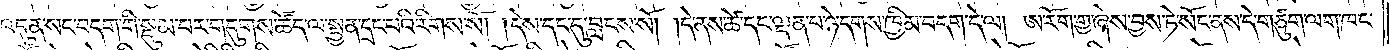འདུན་སང་བདག་གི་སྡུམ་པར་གདུགས་ཚོད་ལ་སྤྱན་དྲངས་པའི་རིགས་སོ། །དེས་དང་དུ་བླངས་སོ། །དེ་ནས་ཚེ་དང་ལྡན་པ་ཉེ་དགས་ཁྱིམ་བདག་དེ་ལ། ཨ་རོག་གྱ་ཞེས་བྱས་ཏེ་སོང་ནས་དེ་གཙུག་ལག་ཁང་
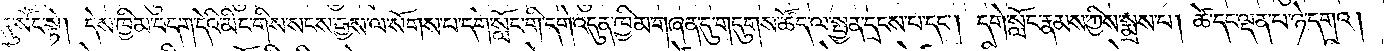དུ་སོང་སྟེ། དེས་ཁྱིམ་བདག་དེའི་མིང་གིས་སངས་རྒྱས་ལ་སོགས་པ་དགེ་སློང་གི་དགེ་འདུན་ཁྱིམ་གཞན་དུ་གདུགས་ཚོད་ལ་སྤྱན་དྲངས་པ་དང༌། དགེ་སློང་རྣམས་ཀྱིས་སྨྲས་པ། ཚེ་དང་ལྡན་པ་ཉེ་དགའ།
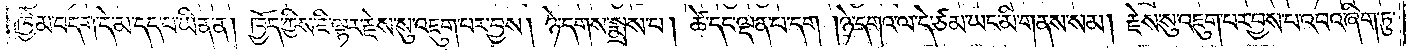ཁྱིམ་བདག་དེ་མ་དད་པ་ཡིན་ན། ཁྱོད་ཀྱིས་ཇི་ལྟར་རྗེས་སུ་འཇུག་པར་བྱས། ཉེ་དགས་སྨྲས་པ། ཚེ་དང་ལྡན་པ་དག །ཉེ་དགའ་ལ་དེ་ཙམ་ཡང་མི་གནས་སམ། རྗེས་སུ་འཇུག་པར་བྱས་པ་འབའ་ཞིག་ཏུ་
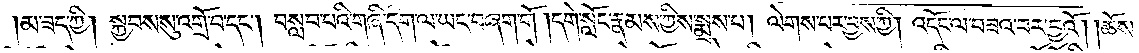།མ་ཟད་ཀྱི། སྐྱབས་སུ་འགྲོ་བ་དང༌། བསླབ་པའི་གཞི་དག་ལ་ཡང་བཞག་གོ །དགེ་སློང་རྣམས་ཀྱིས་སྨྲས་པ། ལེགས་པར་བྱས་ཀྱི། འདོང་ལ་བཟའ་བར་བྱའོ། །ཆོས་
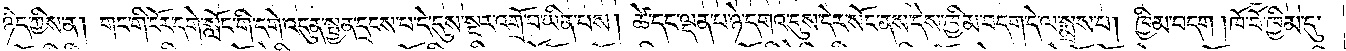ཉིད་ཀྱིས་ན། གང་གི་ངོར་དགེ་སློང་གི་དགེ་འདུན་སྤྱན་དྲངས་པ་དེ་དུས་སྔར་འགྲོ་བ་ཡིན་པས། ཚེ་དང་ལྡན་པ་ཉེ་དགའ་དུས་དེར་སོང་ནས་དེས་ཁྱིམ་བདག་དེ་ལ་སྨྲས་པ། ཁྱིམ་བདག །ཁོ་བོ་ཁྱིམ་དུ་
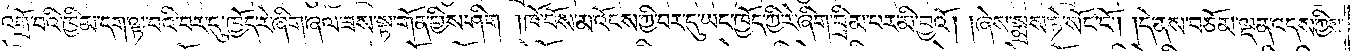འགྲོ་བའི་ཁྱིམ་དག་ལྟ་བའི་བར་དུ་ཁྱོད་རེ་ཞིག་ཞལ་ཟས་སྟ་གོན་གྱིས་ཤིག །ཁོ་བོས་མ་འོངས་ཀྱི་བར་དུ་ཡང་ཁྱོད་ཀྱི་རེ་ཞིག་བྲིམ་པར་མི་བྱའོ། །ཞེས་སྨྲས་ཏེ་སོང་ངོ༌། །དེ་ནས་བཅོམ་ལྡན་འདས་ཀྱིས་
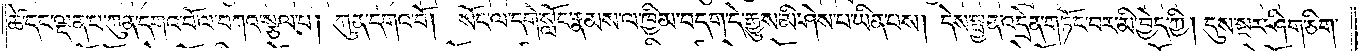ཚེ་དང་ལྡན་པ་ཀུན་དགའ་བོ་ལ་བཀའ་སྩལ་པ། ཀུན་དགའ་བོ། སོང་ལ་དགེ་སློང་རྣམས་ལ་ཁྱིམ་བདག་དེ་རྒྱུས་མི་ཤེས་པ་ཡིན་པས། དེས་སྤྱན་འདྲེན་གཏོང་བར་མི་བྱེད་ཀྱི། དུས་སྔར་ཤིག་ཅིག་
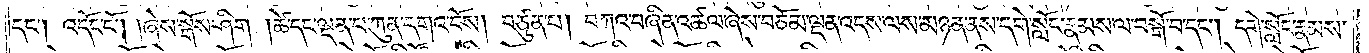དང༌། འདོང་ངོ༌། །ཞེས་སྒོས་ཤིག །ཚེ་དང་ལྡན་པ་ཀུན་དགའ་བོས། བཙུན་པ། བཀའ་བཞིན་འཚལ་ཞེས་བཅོམ་ལྡན་འདས་ལས་མཉན་ནས་དགེ་སློང་རྣམས་ལ་བསྒོ་བ་དང༌། དགེ་སློང་རྣམས་
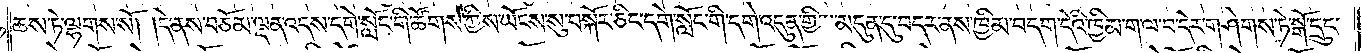ཆས་ཏེ་ལྷགས་སོ། །དེ་ནས་བཅོམ་ལྡན་འདས་དགེ་སློང་གི་ཚོགས་ཀྱིས་ཡོངས་སུ་བསྐོར་ཅིང་དགེ་སློང་གི་དགེ་འདུན་གྱི་མདུན་དུ་བདར་ནས་ཁྱིམ་བདག་དེའི་ཁྱིམ་ག་ལ་བ་དེར་གཤེགས་ཏེ་སྒོ་དྲུང་
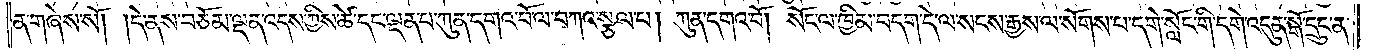ན་གཞེས་སོ། །དེ་ནས་བཅོམ་ལྡན་འདས་ཀྱིས་ཚེ་དང་ལྡན་པ་ཀུན་དགའ་བོ་ལ་བཀའ་སྩལ་པ། ཀུན་དགའ་བོ། སོང་ལ་ཁྱིམ་བདག་དེ་ལ་སངས་རྒྱས་ལ་སོགས་པ་དགེ་སློང་གི་དགེ་འདུན་སྒོ་དྲུང་ན་
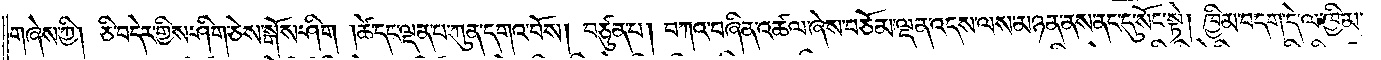གཞེས་ཀྱི། ཅི་བདེར་གྱིས་ཤིག་ཅེས་སྒོས་ཤིག །ཚེ་དང་ལྡན་པ་ཀུན་དགའ་བོས། བཙུན་པ། བཀའ་བཞིན་འཚལ་ཞེས་བཅོམ་ལྡན་འདས་ལས་མཉན་ནས་ནང་དུ་སོང་སྟེ། ཁྱིམ་བདག་དེ་ལ་ཁྱིམ་
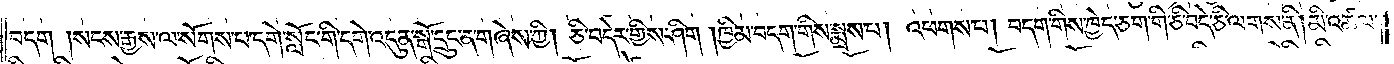བདག །སངས་རྒྱས་ལ་སོགས་པ་དགེ་སློང་གི་དགེ་འདུན་སྒོ་དྲུང་ན་གཞེས་ཀྱི། ཅི་བདེར་གྱིས་ཤིག །ཁྱིམ་བདག་གིས་སྨྲས་པ། འཕགས་པ། བདག་གིས་ཁྱེད་ཅག་གི་ཅི་བདེ་ཅི་ལགས་ནི། མི་འཚལ་
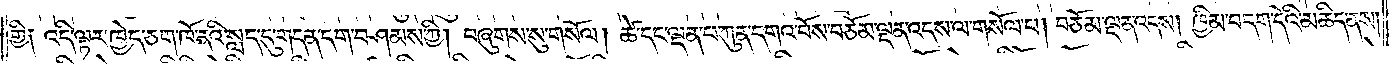གྱི༑ འདི་ལྟར་ཁྱེད་ཅག་ཁོ་ནའི་སླད་དུ་གདན་དག་བཤམས་ཀྱི། བཞུགས་སུ་གསོལ། ཚེ་དང་ལྡན་པ་ཀུན་དགའ་བོས་བཅོམ་ལྡན་འདས་ལ་གསོལ་པ། བཅོམ་ལྡན་འདས། ཁྱིམ་བདག་དེའི་མཆིད་ནས།
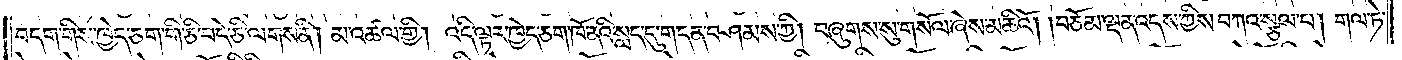བདག་གིས་ཁྱེད་ཅག་གི་ཅི་བདེ་ཅི་ལགས་ནི། མ་འཚལ་གྱི། འདི་ལྟར་ཁྱེད་ཅག་ཁོ་ནའི་སླད་དུ་གདན་བཤམས་ཀྱི། བཞུགས་སུ་གསོལ་ཞེས་མཆིའོ། །བཅོམ་ལྡན་འདས་ཀྱིས་བཀའ་སྩལ་པ། གལ་ཏེ་
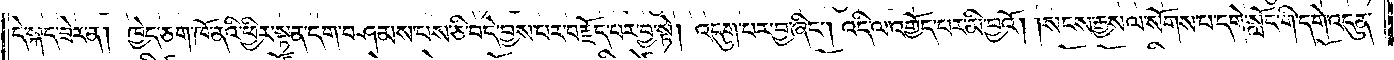དེ་སྐད་ཟེར་ན། ཁྱེད་ཅག་ཁོ་ནའི་ཕྱིར་སྟན་དག་བཤམས་པས་ཅི་བདེ་བྱས་པར་བརྗོད་པར་བྱ་སྟེ། འདུག་པར་བྱ་ཞིང༌། འདི་ལ་འགྱོད་པར་མི་བྱའོ། །སངས་རྒྱས་ལ་སོགས་པ་དགེ་སློང་གི་དགེ་འདུན་
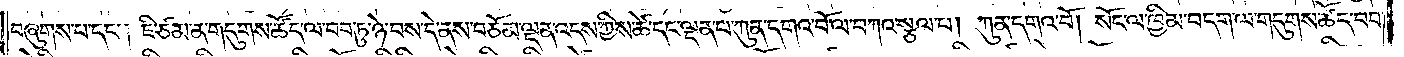བཞུགས་པ་དང༌། ཇི་ཙམ་ན་གདུགས་ཚོད་ལ་བབ་ཏུ་ཉེ་བས་དེ་ནས་བཅོམ་ལྡན་འདས་ཀྱིས་ཚེ་དང་ལྡན་པ་ཀུན་དགའ་བོ་ལ་བཀའ་སྩལ་པ། ཀུན་དགའ་བོ། སོང་ལ་ཁྱིམ་བདག་ལ་གདུགས་ཚོད་བབ་
